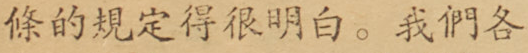條的規定得很明白。我們各
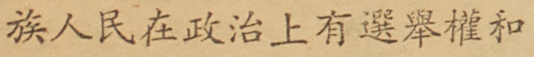族人民在政治上有選舉權和
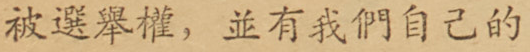被選舉權，並有我們自己的
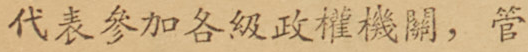代表參加各級政權機關，管
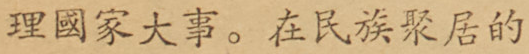理國家大事。在民族聚居的
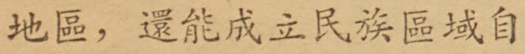地區，還能成立民族區域自
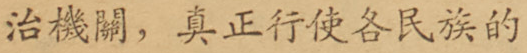治機關，真正行使各民族的
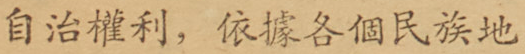自治權利，依據各個民族地
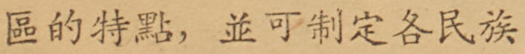區的特點，並可制定各民族
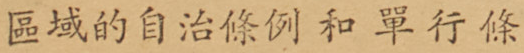區域的自治條例和單行條
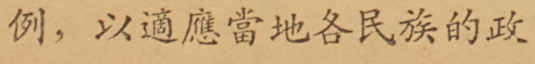例，以適應當地各民族的政
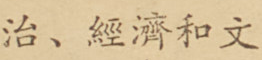治、經濟和文
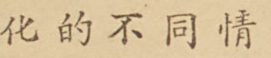化的不同情
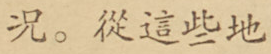況。從這些地
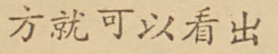方就可以看出
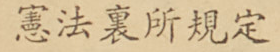憲法裏所規定
